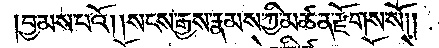བྱམས་པའོ། །སངས་རྒྱས་རྣམས་ཀྱི་མཚན་རྫོགས་སོ༎
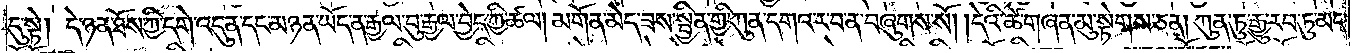དུ་སྟེ། དེ་ཉན་ཐོས་ཀྱི་དགེ་འདུན་དང་མཉན་ཡོད་ན་རྒྱལ་བུ་རྒྱལ་བྱེད་ཀྱི་ཚལ། མགོན་མེད་ཟས་སྦྱིན་གྱི་ཀུན་དགའ་ར་བ་ན་བཞུགས་སོ། །དེའི་ཚེ་གཞན་མུ་སྟེགས་ཅན། ཀུན་ཏུ་རྒྱུ་རབ་ཏུ་མང་
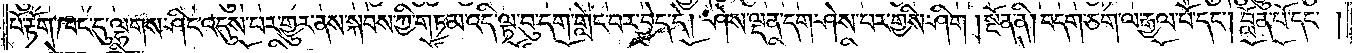པོ་རྟོག་ཁང་དུ་ལྷགས་ཤིང་འདུས་པར་གྱུར་ནས་སྐབས་ཀྱི་གཏམ་འདི་ལྟ་བུ་དག་གླེང་བར་བྱེད་དེ། ཤེས་ལྡན་དག་ཤེས་པར་གྱིས་ཤིག །སྔོན་ནི། བདག་ཅག་ལ་རྒྱལ་པོ་དང༌། བློན་པོ་དང༌།
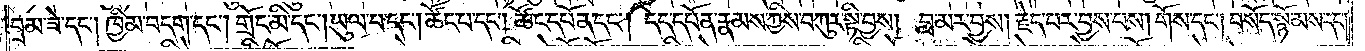བྲམ་ཟེ་དང༌། ཁྱིམ་བདག་དང༌། གྲོང་མི་དང༌། ཡུལ་པ་དང༌། ཚོང་པ་དང༌། ཚོང་དཔོན་དང༌། དེད་དཔོན་རྣམས་ཀྱིས་བཀུར་སྟི་བྱས། བླ་མར་བྱས། རྗེད་པར་བྱས་པས། གོས་དང༌། བསོད་སྙོམས་དང༌།
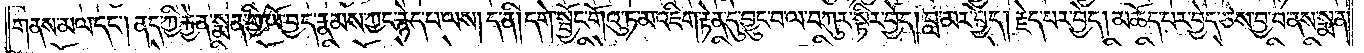གནས་མལ་དང༌། ནད་ཀྱི་རྐྱེན་སྨན་གྱི་ཡོ་བྱད་རྣམས་ཀྱང་རྙེད་པ་ལས། ད་ནི། དགེ་སྦྱོང་གོའུ་ཏ་མ་འཇིག་རྟེན་དུ་བྱུང་བ་ལ་བཀུར་སྟིར་བྱེད། བླ་མར་བྱེད། རྗེད་པར་བྱེད། མཆོད་པར་བྱེད་ཅེས་བྱ་བ་ནས་སྨན་
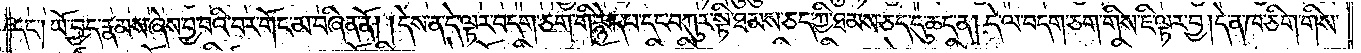དང༌། ཡོ་བྱད་རྣམས་ཞེས་བྱ་བའི་བར་གོང་མ་བཞིན་ནོ། །དེས་ན་དེ་ལྟར་བདག་ཅག་གི་རྙེད་པ་དང་བཀུར་སྟི་ཐམས་ཅད་ཀྱི་ཐམས་ཅད་དུ་ཆད་ན། དེ་ལ་བདག་ཅག་གིས་ཇི་ལྟར་བྱ། དེ་ན་ཁ་ཅིག་གིས་
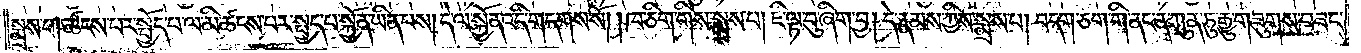སྨྲས་པ། ཚངས་པར་སྤྱོད་པ་ལ་མི་ཚངས་པར་སྤྱད་པ་སྐྱོན་ཡིན་པས། དེ་ལ་སྐྱོན་འདི་གདགས་སོ། །ཁ་ཅིག་གིས་སྨྲས་པ། ཇི་ལྟ་བུ་ཞིག་བྱ། དེ་རྣམས་ཀྱིས་སྨྲས་པ། བདག་ཅག་གི་ནང་ན་ཀུན་ཏུ་རྒྱུ་གཟུགས་བཟང་
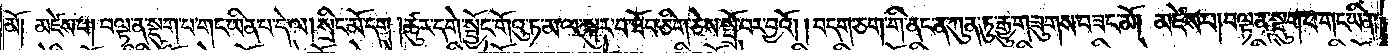མོ། མཛེས་པ། བལྟ་ན་སྡུག་པ་གང་ཡིན་པ་དེ་ལ། སྲིང་མོ་དག །ཚུར་དགེ་སྦྱོང་གོའུ་ཏ་མ་ལ་སྐུར་བ་ཐོབ་ཅིག་ཅེས་སྤྲོ་བར་བྱའོ། །བདག་ཅག་གི་ནང་ན་ཀུན་ཏུ་རྒྱུ་གཟུགས་བཟང་མོ། མཛེས་པ། བལྟ་ན་སྡུག་པ་གང་ཡིན།
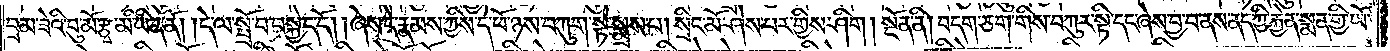བྲམ་ཟེའི་བུ་མོ་རྩྭ་མི་ཡིན་ནོ། །དེ་ལ་སྤྲོ་བ་བསྐྱེད་དོ། །ཞེས་དེ་རྣམས་ཀྱིས་དེ་ཕོ་ཉས་བཀུག་སྟེ་སྨྲས་པ། སྲིང་མོ་ཤེས་པར་གྱིས་ཤིག །སྔོན་ནི། བདག་ཅག་གིས་བཀུར་སྟི་དང་ཞེས་བྱ་བ་ནས་ནད་ཀྱི་རྐྱེན་སྨན་གྱི་ཡོ་
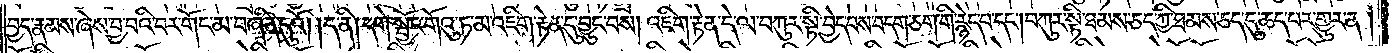བྱད་རྣམས་ཞེས་བྱ་བའི་བར་གོང་མ་བཞིན་དུའོ། །ད་ནི། དགེ་སྦྱོང་གོའུ་ཏ་མ་འཇིག་རྟེན་དུ་བྱུང་བས། འཇིག་རྟེན་དེ་ལ་བཀུར་སྟི་བྱེད་པས་བདག་ཅག་གི་རྙེད་པ་དང༌། བཀུར་སྟི་ཐམས་ཅད་ཀྱི་ཐམས་ཅད་དུ་ཆད་པར་གྱུར་ན།
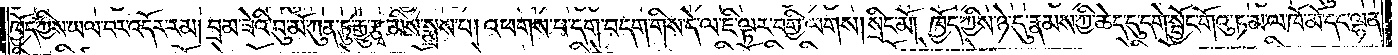ཁྱོད་ཀྱིས་ཡལ་བར་འདོར་རམ། བྲམ་ཟེའི་བུ་མོ་ཀུན་ཏུ་རྒྱུ་རྩྭ་མིས་སྨྲས་པ། འཕགས་པ་དག་བདག་གིས་དེ་ལ་ཇི་ལྟར་བགྱི་ལགས། སྲིང་མོ། ཁྱོད་ཀྱིས་ཉེ་དུ་རྣམས་ཀྱི་ཆེད་དུ་དགེ་སྦྱོང་གོའུ་ཏ་མ་ལ་ཁོ་མོ་དང་ལྷན་
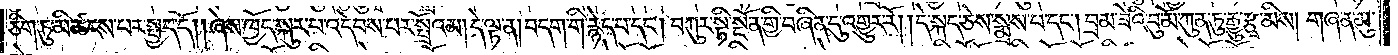ཅིག་ཏུ་མི་ཚངས་པར་སྤྱད་དོ། །ཞེས་ཁྱོད་སྐུར་པ་འདེབས་པར་སྤྲོའམ། དེ་ལྟ་ན། བདག་གི་རྙེད་པ་དང༌། བཀུར་སྟི་སྔོན་གྱི་བཞིན་དུ་འགྱུར་རོ། །དེ་སྐད་ཅེས་སྨྲས་པ་དང༌། བྲམ་ཟེའི་བུ་མོ་ཀུན་ཏུ་རྒྱུ་རྩྭ་མིས། གཞན་མུ་
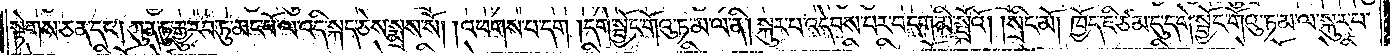སྟེགས་ཅན་དང༌། ཀུན་ཏུ་རྒྱུ་རབ་ཏུ་མང་པོ་ལ་འདི་སྐད་ཅེས་སྨྲས་སོ། །འཕགས་བ་དག །དགེ་སྦྱོང་གོའུ་ཏ་མ་ལ་ནི། སྐུར་པ་འདེབས་པར་བདག་མི་སྤྲོའོ། །སྲིང་མོ། ཁྱོད་ཇི་ཙམ་དུ་དགེ་སྦྱོང་གོའུ་ཏ་མ་ལ་སྐུར་པ་
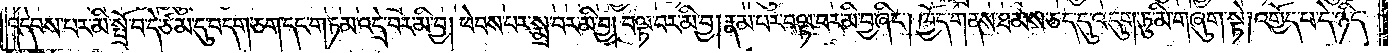འདེབས་པར་མི་སྤྲོ་བ་དེ་ཙམ་དུ་བདག་ཅག་དང་གཏམ་འདྲེ་བར་མི་བྱ། ཕེབས་པར་སྨྲ་བར་མི་བྱ། བལྟ་བར་མི་བྱ། རྣམ་པར་བལྟ་བར་མི་བྱ་ཞིང༌། ཁྱོད་གནས་ཐམས་ཅད་དུ་འདུག་ཏུ་མི་གཞུག་སྟེ། འགྱོད་པ་དེ་ཉིད་
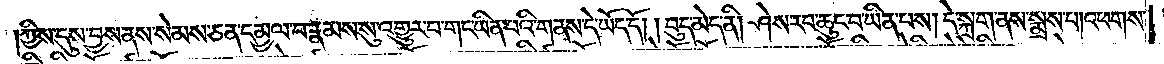།ཀྱིས་དུས་བྱས་ནས་སེམས་ཅན་དམྱལ་བ་རྣམས་སུ་འགྱུར་བ་གང་ཡིན་པའི་གནས་དེ་ཡོད་དོ། །བུད་མེད་ནི། ཤེས་རབ་ཆུང་བ་ཡིན་པས། དེ་སྐྲག་ནས་སྨྲས་པ། འཕགས་
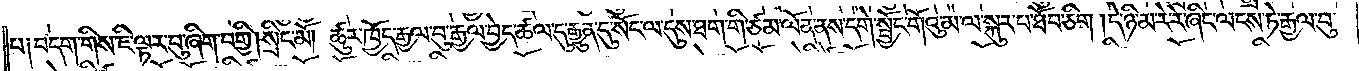པ༑ བདག་གིས་ཇི་ལྟར་བུ་ཞིག་བགྱི། སྲིང་མོ། ཚུར་ཁྱོད་རྒྱལ་བུ་རྒྱལ་བྱེད་ཚལ་དུ་རྒྱུན་དུ་སོང་ལ་དུས་ཐག་གི་ཙམ་ལོན་ནས་དགེ་སྦྱོང་གོའུ་མ་ལ་སྐུར་པ་ཐོབ་ཅིག །དེ་ཉི་མ་རེ་རེ་ཞིང་ལངས་ཏེ་རྒྱལ་བུ་
